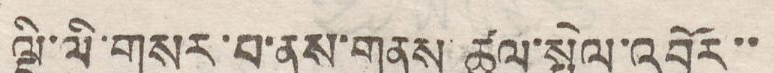ལྡི་ལི་གསར་པ་ནས་གནས་ཚུལ་སྤེལ་འབྱོར་་
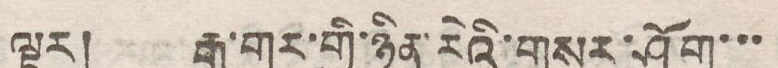ལྟར། རྒྱ་གར་གྱི་ཉིན་རེའི་གསལ་ཤོག་་་
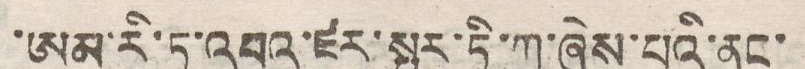་ཨམ་རི་ཏ་འབའ་ཛར་སྤར་ཏི་ཀ་ཞེས་པའི་ནང་
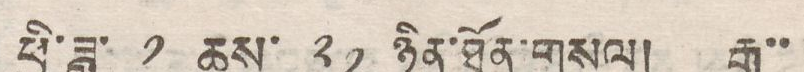ཕྱི་ཟླ་ ༡ ཆས་ ༢༡ ཉིན་ཐོན་གསལ། རྒྱ་་
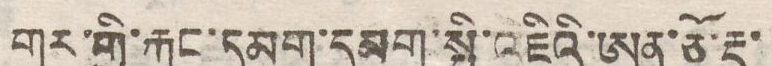གར་གྱི་རྐང་དམག་དམག་སྤྱི་འཇིའི་ཨན་ཅོ་རྡ་
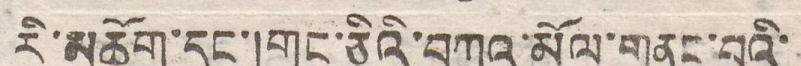རི་མཆོག་དང་།གང་ཅིའི་བཀའ་མོལ་གནང་བའི་
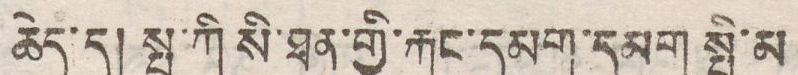ཆེད་དུ། སྤ་ཀི སི་ཐན་གྱི་རྐང་དམག་དམག སྤྱི་མ
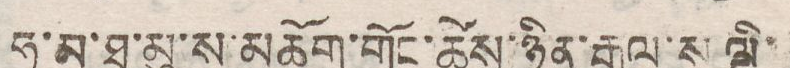ཧ་མ་ཐ་མུ་ས་མཆོག་གོང་ཚེས་ཉིན་རྒྱལ་ས ལྡི་
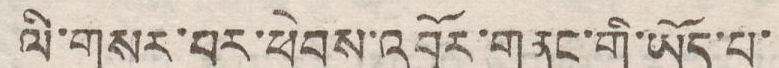ལི་གསར་བར་ཕེབས་འབྱོར་གནང་གི་ཡོད་པ་
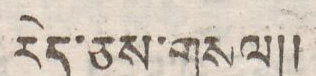རེད་ཅས་གསལ།།
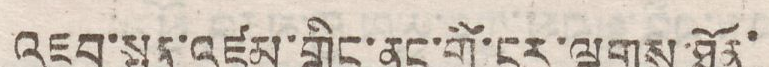འཇབ་སྤན་འཛམ་གླིང་ནང་གི་ངར་ལྕགས་ཐོན་
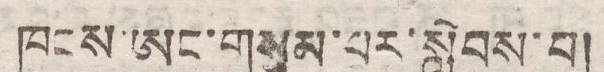ཁུངས་ཨང་གསུམ་པར་སླེབས་པ།
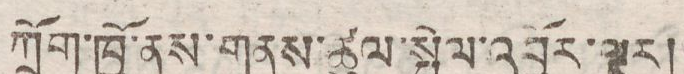ཀྲོག་ཁྱོ་ནས་གནས་ཚུལ་སྤེལ་འབྱོར་ལྟར།
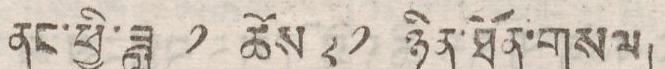ནང་ཕྱི་ཟླ ༡ ཚེས ༢༡ ཉིན་ཐོན་གསལ།
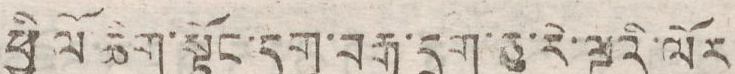ཕྱི ལོ ཆིག་སྟོང་དགུ་བརྒྱ་དྲུག་ཅུ་རེ་ལྔའི་ལོར
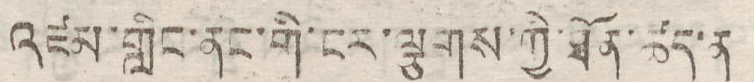འཛམ་གླིང་ནང་གི་ངར་ལྕགས་ཀྱི་ཐོན་ཚད་ན
